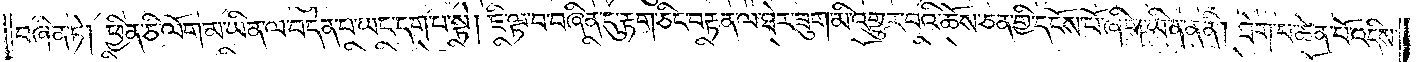བཞིན་ཏེ། ཕྱིན་ཅི་ལོག་མ་ཡིན་ལ་བདེན་པ་ཡང་དག་པ་སྟེ། ཇི་ལྟ་བ་བཞིན་དུ་རྟག་ཅིང་བརྟན་ལ་ཐེར་ཟུག་མི་འགྱུར་བའི་ཆོས་ཅན་གྱི་དངོས་པོ་ཞིག་ཡིན་ན་ནི། ཐེག་པ་ཆེན་པོ་འདིས་
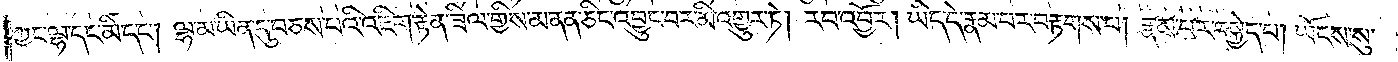ཀྱང་ལྷ་དང་མི་དང༌། ལྷ་མ་ཡིན་དུ་བཅས་པའི་འཇིག་རྟེན་ཟིལ་གྱིས་མནན་ཅིང་འབྱུང་བར་མི་འགྱུར་ཏེ། རབ་འབྱོར། ཡིད་དེ་རྣམ་པར་བརྟགས་པ། རྣམ་པར་བསྐྱེད་པ། ཡོངས་སུ་
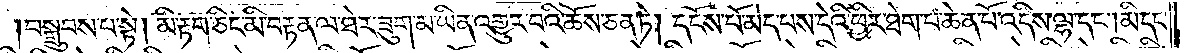བསྒྲུབས་པ་སྟེ། མི་རྟག་ཅིང་མི་བརྟན་ལ་ཐེར་ཟུག་མ་ཡིན་འགྱུར་བའི་ཆོས་ཅན་ཏེ། དངོས་པོ་མེད་པས་དེའི་ཕྱིར་ཐེག་པ་ཆེན་པོ་འདིས་ལྷ་དང༌། མི་དང་
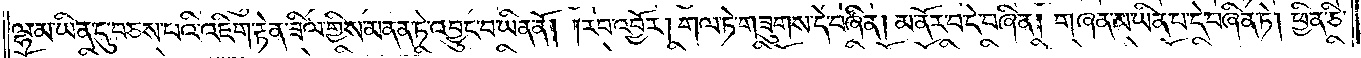ལྷ་མ་ཡིན་དུ་བཅས་པའི་འཇིག་རྟེན་ཟིལ་གྱིས་མནན་ཏེ་འབྱུང་བ་ཡིན་ནོ། །རབ་འབྱོར། གལ་ཏེ་གཟུགས་དེ་བཞིན། མ་ནོར་བ་དེ་བཞིན། གཞན་མ་ཡིན་པ་དེ་བཞིན་ཏེ། ཕྱིན་ཅི་
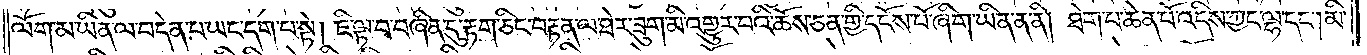ལོག་མ་ཡིན་ལ་བདེན་པ་ཡང་དག་པ་སྟེ། ཇི་ལྟ་བ་བཞིན་དུ་རྟག་ཅིང་བརྟན་ལ་ཐེར་ཟུག་མི་འགྱུར་བའི་ཆོས་ཅན་གྱི་དངོས་པོ་ཞིག་ཡིན་ན་ནི། ཐེག་པ་ཆེན་པོ་འདིས་ཀྱང་ལྷ་དང༌། མི་
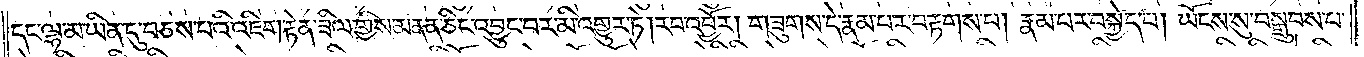དང་ལྷ་མ་ཡིན་དུ་བཅས་པའི་འཇིག་རྟེན་ཟིལ་གྱིས་མནན་ཅིང་འབྱུང་བར་མི་འགྱུར་ཏེ། རབ་འབྱོར། གཟུགས་དེ་རྣམ་པར་བརྟགས་པ། རྣམ་པར་བསྐྱེད་པ། ཡོངས་སུ་བསྒྲུབས་པ་
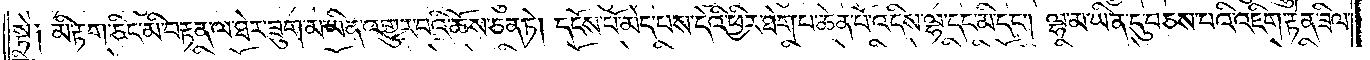སྟེ། མི་རྟག་ཅིང་མི་བརྟན་ལ་ཐེར་ཟུག་མ་ཡིན་འགྱུར་བའི་ཆོས་ཅན་ཏེ། དངོས་པོ་མེད་པས་དེའི་ཕྱིར་ཐེག་པ་ཆེན་པོ་འདིས་ལྷ་དང་མི་དང༌། ལྷ་མ་ཡིན་དུ་བཅས་པའི་འཇིག་རྟེན་ཟིལ་
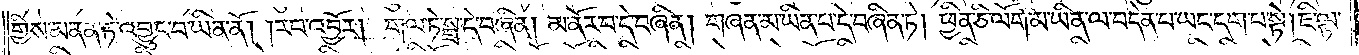གྱིས་མནན་ཏེ་འབྱུང་བ་ཡིན་ནོ། །རབ་འབྱོར། གལ་ཏེ་སྒྲ་དེ་བཞིན། མ་ནོར་བ་དེ་བཞིན། གཞན་མ་ཡིན་པ་དེ་བཞིན་ཏེ། ཕྱིན་ཅི་ལོག་མ་ཡིན་ལ་བདེན་པ་ཡང་དག་པ་སྟེ། ཇི་ལྟ་
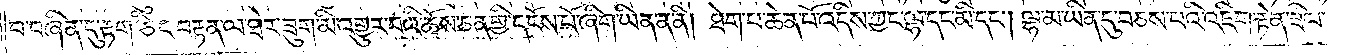བ་བཞིན་དུ་རྟག་ཅིང་བརྟན་ལ་ཐེར་ཟུག་མི་འགྱུར་བའི་ཆོས་ཅན་གྱི་དངོས་པོ་ཞིག་ཡིན་ན་ནི། ཐེག་པ་ཆེན་པོ་འདིས་ཀྱང་ལྷ་དང་མི་དང༌། ལྷ་མ་ཡིན་དུ་བཅས་པའི་འཇིག་རྟེན་ཟིལ་
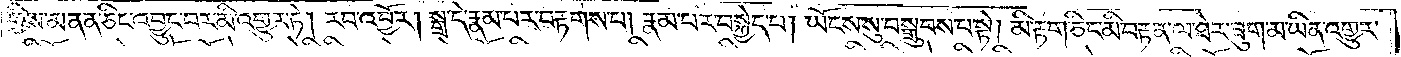གྱིས་མནན་ཅིང་འབྱུང་བར་མི་འགྱུར་ཏེ། རབ་འབྱོར། སྒྲ་དེ་རྣམ་པར་བརྟགས་པ། རྣམ་པར་བསྐྱེད་པ། ཡོངས་སུ་བསྒྲུབས་པ་སྟེ། མི་རྟག་ཅིང་མི་བརྟན་ལ་ཐེར་ཟུག་མ་ཡིན་འགྱུར་
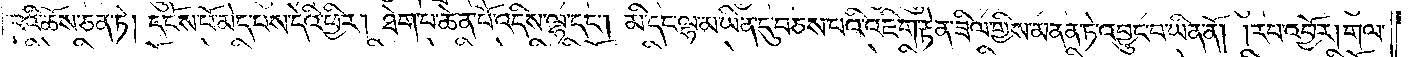བའི་ཆོས་ཅན་ཏེ། དངོས་པོ་མེད་པས་དེའི་ཕྱིར། ཐེག་པ་ཆེན་པོ་འདིས་ལྷ་དང༌། མི་དང་ལྷ་མ་ཡིན་དུ་བཅས་པའི་འཇིག་རྟེན་ཟིལ་གྱིས་མནན་ཏེ་འབྱུང་བ་ཡིན་ནོ། །རབ་འབྱོར། གལ་
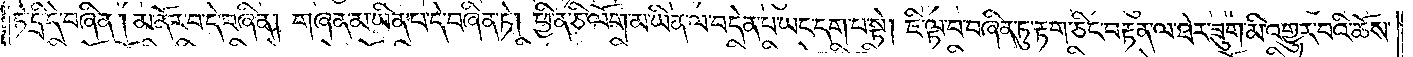ཏེ་དྲི་དེ་བཞིན། མ་ནོར་བ་དེ་བཞིན། གཞན་མ་ཡིན་པ་དེ་བཞིན་ཏེ། ཕྱིན་ཅི་ལོག་མ་ཡིན་ལ་བདེན་པ་ཡང་དག་པ་སྟེ། ཇི་ལྟ་བ་བཞིན་དུ་རྟག་ཅིང་བརྟན་ལ་ཐེར་ཟུག་མི་འགྱུར་བའི་ཆོས་
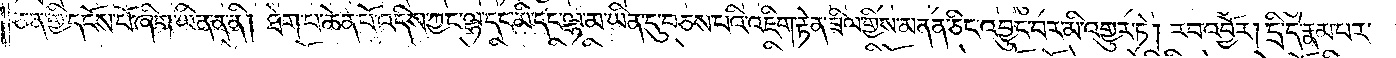ཅན་གྱི་དངོས་པོ་ཞིག་ཡིན་ན་ནི། ཐེག་པ་ཆེན་པོ་འདིས་ཀྱང་ལྷ་དང་མི་དང་ལྷ་མ་ཡིན་དུ་བཅས་པའི་འཇིག་རྟེན་ཟིལ་གྱིས་མནན་ཅིང་འབྱུང་བར་མི་འགྱུར་ཏེ། རབ་འབྱོར། དྲི་དེ་རྣམ་པར་
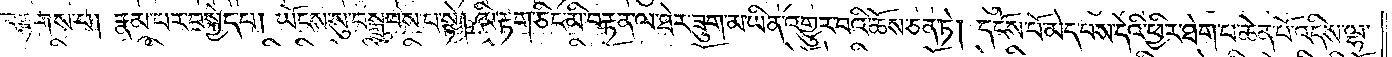བརྟགས་པ། རྣམ་པར་བསྐྱེད་པ། ཡོངས་སུ་བསྒྲུབས་པ་སྟེ། མི་རྟག་ཅིང་མི་བརྟན་ལ་ཐེར་ཟུག་མ་ཡིན་འགྱུར་བའི་ཆོས་ཅན་ཏེ། དངོས་པོ་མེད་པས་དེའི་ཕྱིར་ཐེག་པ་ཆེན་པོ་འདིས་ལྷ་
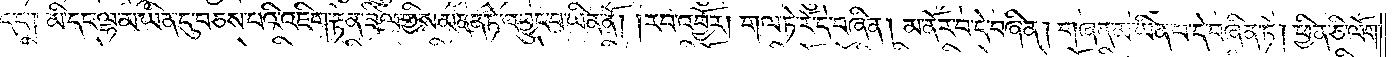དང༌། མི་དང་ལྷ་མ་ཡིན་དུ་བཅས་པའི་འཇིག་རྟེན་ཟིལ་གྱིས་མནན་ཏེ་འབྱུང་བ་ཡིན་ནོ། །རབ་འབྱོར། གལ་ཏེ་རོ་དེ་བཞིན། མ་ནོར་བ་དེ་བཞིན། གཞན་མ་ཡིན་པ་དེ་བཞིན་ཏེ། ཕྱིན་ཅི་ལོག་
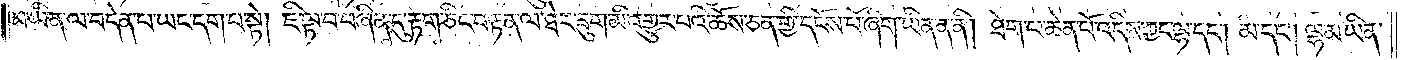མ་ཡིན་ལ་བདེན་པ་ཡང་དག་པ་སྟེ། ཇི་ལྟ་བ་བཞིན་དུ་རྟག་ཅིང་བརྟན་ལ་ཐེར་ཟུག་མི་འགྱུར་བའི་ཆོས་ཅན་གྱི་དངོས་པོ་ཞིག་ཡིན་ན་ནི། ཐེག་པ་ཆེན་པོ་འདིས་ཀྱང་ལྷ་དང༌། མི་དང༌། ལྷ་མ་ཡིན་
